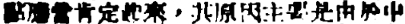點應當肯定起來，其原因主要是由於中
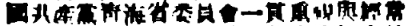國共產黨靑海省委員會一貫重視與經常
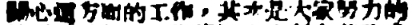關心這方面的工作，其次是大家努力的
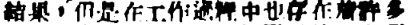結果，但是在工作過程中也存在着許多
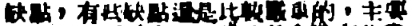缺點，有些缺點還是比較嚴重的，主要
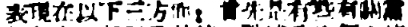表現在以下三方面：首先是有些有關黨
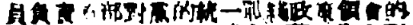員負責幹部對黨的統一戰綫政策領會的
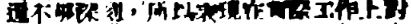還不夠深刻，所以表現在實際工作上對
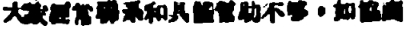大家經常聯系和具體幫助不夠，如協商
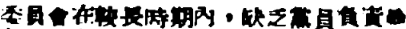委員會在較長時期內，缺乏黨員負責幹
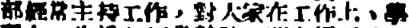部經常主持工作，對大家在工作上、學
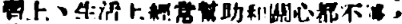習上、生活上經常幫助和關心都不夠，
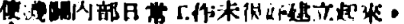使機關內部日常工作未很好建立起來，
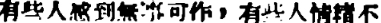有些人感到無事可做，有些人情緒不
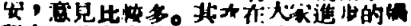安，意見比較多。其次在大家進步的過
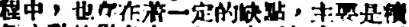程中，也存在着一定的缺點，主要是積
